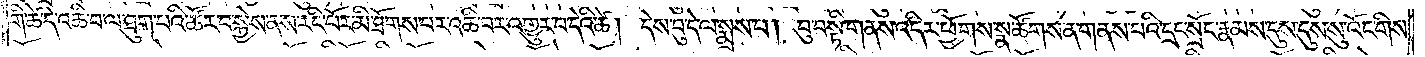གི་ཚེ་དེ་འཆི་བ་ལ་ཐུག་པའི་ཚོར་བ་སྐྱེས་ནས་རིང་པོར་མི་ཐོགས་པར་འཆི་བར་འགྱུར་བ་དེའི་ཚེ། དེས་བུ་དེ་ལ་སྨྲས་པ། བུ་བསྟི་གནས་འདིར་ཕྱོགས་སྣ་ཚོགས་ན་གནས་པའི་དྲང་སྲོང་རྣམས་དུས་དུས་སུ་འོང་གིས་
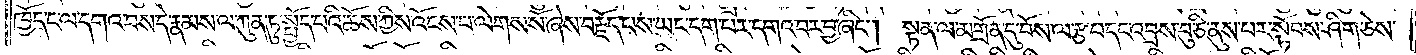ཁྱོད་ང་ལ་དགའ་བས་དེ་རྣམས་ལ་ཀུན་ཏུ་སྤྱོད་པའི་ཆོས་ཀྱིས་འོངས་པ་ལེགས་སོ་ཞེས་བརྗོད་པས་ཡང་དག་པར་དགའ་བར་བྱ་ཞིང༌། སྟན་ལ་མགྲོན་དུ་བོས་ལ་རྩ་བ་དང་འབྲས་བུ་ཅི་ནུས་པར་སྟོབས་ཤིག་ཅེས་
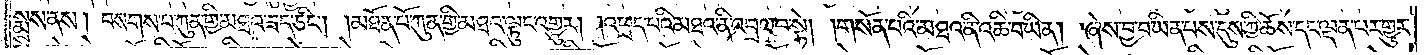སྨྲས་ནས། བསགས་པ་ཀུན་གྱི་མཐའ་ཟད་ཅིང༌། །མཐོན་པོ་ཀུན་གྱི་མཐའ་ལྟུང་འགྱུར། །འཕྲད་པའི་མཐའ་ནི་འབྲལ་བ་སྟེ། །གསོན་པའི་མཐའ་ནི་འཆི་བ་ཡིན། །ཞེས་བྱ་བ་ཡིན་པས་དུས་ཀྱི་ཆོས་དང་ལྡན་པར་གྱུར་
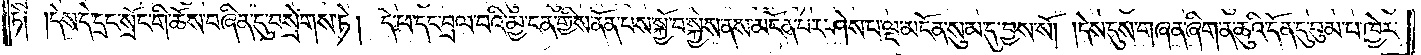ཏེ༑ ༑དེས་དེ་དྲང་སྲོང་གི་ཆོས་བཞིན་དུ་བསྲེགས་ཏེ། དེ་ཕ་དང་བྲལ་བའི་མྱ་ངན་གྱིས་ནོན་པས་སྐྱོ་བ་སྐྱེས་ནས་མངོན་པར་ཤེས་པ་ལྔ་མངོན་སུམ་དུ་བྱས་སོ། །དེས་དུས་གཞན་ཞིག་ན་ཆུའི་དོན་དུ་བུམ་པ་ཁྱེར་
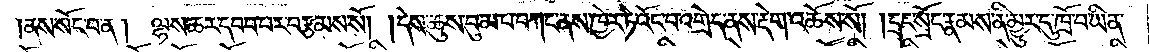།ནས་སོང་བ་ན། ལྷས་ཆར་དབབ་པར་བརྩམས་སོ། །དེ་ཆུས་བུམ་པ་བཀང་ནས་ཁྱེར་ཏེ་འོང་བ་འགྲེད་ནས་རྡེག་འཆོས་སོ། །དྲང་སྲོང་རྣམས་ནི་མྱུར་དུ་ཁྲོ་བ་ཡིན་
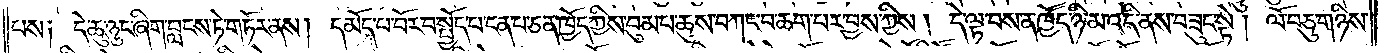པས༑ དེ་ཆུ་ཉུང་ཞིག་བླངས་ཏེ་གཏོར་ནས། དམོད་པ་པོར་བ་སྤྱོད་པ་ངན་པ་ཅན་ཁྱོད་ཀྱིས་བུམ་པ་ཆུས་བཀང་བ་ཆག་པར་བྱས་ཀྱིས། དེ་ལྟ་བས་ན་ཁྱོད་ཉི་མ་འདི་ནས་བཟུང་སྟེ། ལོ་བཅུ་གཉིས་
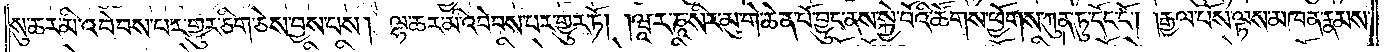སུ་ཆར་མི་འབེབས་པར་གྱུར་ཅིག་ཅེས་བྱས་པས། ལྷ་ཆར་མི་འབེབས་པར་གྱུར་ཏོ། །ཝཱ་ར་ཎཱ་སིར་མུ་གེ་ཆེན་པོ་བྱུང་ནས་སྐྱེ་བོའི་ཚོགས་ཕྱོགས་ཀུན་ཏུ་དོང་ངོ༌། །རྒྱལ་པོས་ལྟས་མཁན་རྣམས་
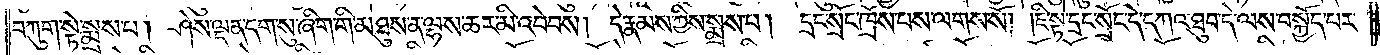བཀུག་སྟེ་སྨྲས་པ། ཤེས་ལྡན་དག་སུ་ཞིག་གི་མཐུས་ན་ལྷས་ཆར་མི་འབེབས། དེ་རྣམས་ཀྱིས་སྨྲས་པ། དྲང་སྲོང་ཁྲོས་པས་ལགས་སོ། །ཇི་སྟེ་དྲང་སྲོང་དེ་དཀའ་ཐུབ་དེ་ལས་བསྐྱོད་པར་
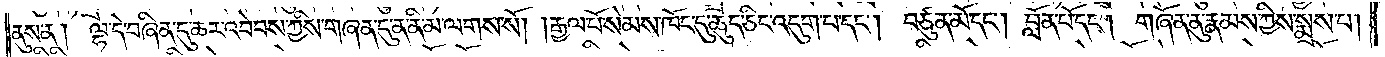ནུས་ན། ལྷ་དེ་བཞིན་དུ་ཆར་འབེབས་ཀྱིས་གཞན་དུ་ན་ནི་མ་ལགས་སོ། །རྒྱལ་པོ་སེམས་ཁོང་དུ་ཆུད་ཅིང་འདུག་པ་དང༌། བཙུན་མོ་དང༌། བློན་པོ་དང༌། གཞོན་ནུ་རྣམས་ཀྱིས་སྨྲས་པ།
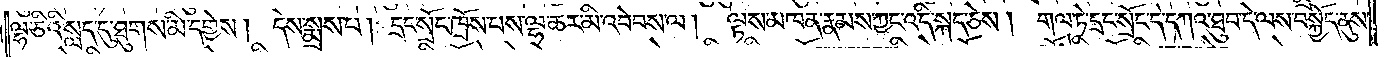ལྷ་ཅིའི་སླད་དུ་ཐུགས་མི་དགྱེས། དེས་སྨྲས་པ། དྲང་སྲོང་ཁྲོས་པས་ལྷ་ཆར་མི་འབེབས་ལ། ལྟས་མཁན་རྣམས་ཀྱང་འདི་སྐད་ཅེས། གལ་ཏེ་དྲང་སྲོང་དེ་དཀའ་ཐུབ་དེ་ལས་བསྐྱོད་ནུས་
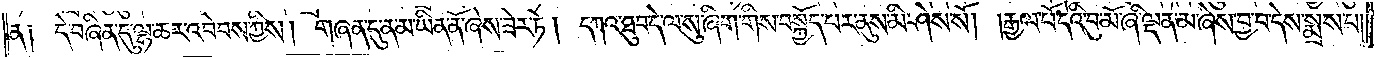ན།  དེ་བཞིན་དུ་ལྷ་ཆར་འབེབས་ཀྱིས། གཞན་དུ་ན་མ་ཡིན་ནོ་ཞེས་ཟེར་ཏེ། དཀའ་ཐུབ་དེ་ལ་སུ་ཞིག་གིས་བསྐྱོད་པར་ནུས་མི་ཤེས་སོ། །རྒྱལ་པོ་དེའི་བུ་མོ་ཞི་ལྡན་མ་ཞེས་བྱ་བ་དེས་སྨྲས་པ།
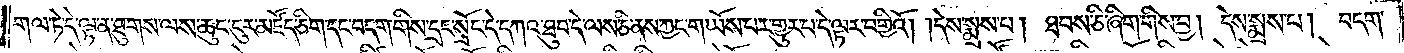གལ་ཏེ་དེ་ལྟ་ན་ཐུགས་ལས་ཆུང་ངུར་མཛོད་ཅིག་དང་བདག་གིས་དྲང་སྲོང་དེ་དཀའ་ཐུབ་དེ་ལས་ཅི་ནས་ཀྱང་གཡོས་པར་གྱུར་པ་དེ་ལྟར་བགྱིའོ། །དེས་སྨྲས་པ། ཐབས་ཅི་ཞིག་གིས་བྱ། དེས་སྨྲས་པ། བདག་
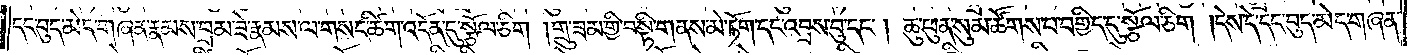དང་བུད་མེད་གཞན་རྣམས་བྲམ་ཟེ་རྣམས་ལ་གསང་ཚིག་འདོན་དུ་སྩོལ་ཅིག །གྲུ་ཟམ་གྱི་བསྟི་གནས་མེ་ཏོག་དང་འབྲས་བུ་དང༌། ཆུ་ཕུན་སུམ་ཚོགས་པ་བགྱིད་དུ་སྩོལ་ཅིག །དེས་དེ་དང་བུད་མེད་གཞན་
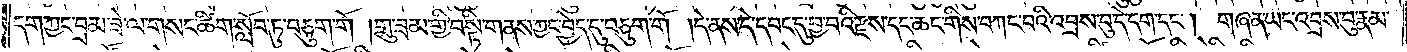དག་ཀྱང་བྲམ་ཟེ་ལ་གསང་ཚིག་སློབ་ཏུ་བཅུག་གོ །གྲུ་ཟམ་གྱི་བསྟི་གནས་ཀྱང་བྱེད་དུ་བཅུག་གོ །དེ་ནས་དེ་དབང་དུ་བྱ་བའི་རྫས་དང་ཆང་གིས་བཀང་བའི་འབྲས་བུ་དེ་དག་དང༌། གཞན་ཡང་འབྲས་བུ་རྣམ་
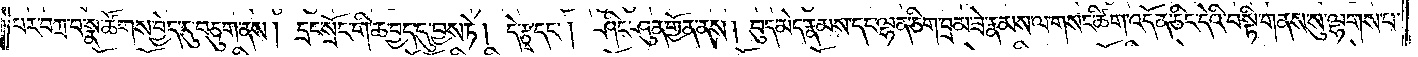པར་བཀྲ་བ་སྣ་ཚོགས་བྱེད་དུ་བཅུག་ནས། དྲང་སྲོང་གི་ཆ་བྱད་དུ་བྱས་ཏེ། དེ་རྩྭ་དང༌། ཤིང་ཤུན་གྱོན་ནས། བུད་མེད་རྣམས་དང་ལྷན་ཅིག་བྲམ་ཟེ་རྣམས་ལ་གསང་ཚིག་འདོན་ཅིང་དེའི་བསྟི་གནས་སུ་ལྷགས་པ་
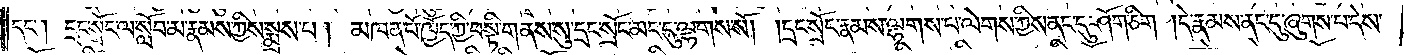དང༌། དྲང་སྲོང་ལ་སློབ་མ་རྣམས་ཀྱིས་སྨྲས་པ། མཁན་པོ་ཁྱོད་ཀྱི་བསྟི་གནས་སུ་དྲང་སྲོང་མང་དུ་ལྷགས་སོ། །དྲང་སྲོང་རྣམས་ལྷགས་པ་ལེགས་ཀྱིས་ནང་དུ་ཤོག་ཅིག །དེ་རྣམས་ནང་དུ་ཞུགས་པ་དེས་
